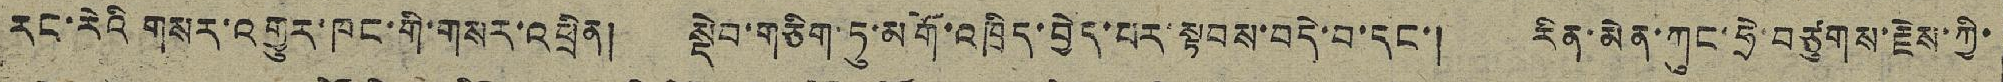རང་རེའི་གསར་འགྱུར་ཁང་གི་གསར་འཕྲིན། སྡེབ་གཅིག་ཏུ་མགོ་འཁྲིད་བྱེད་པར་སྟབས་བདེ་བ་དང་། རིན་མེན་ཀུང་ཧྲེ་བཙུགས་རྗེས་ཀྱི་
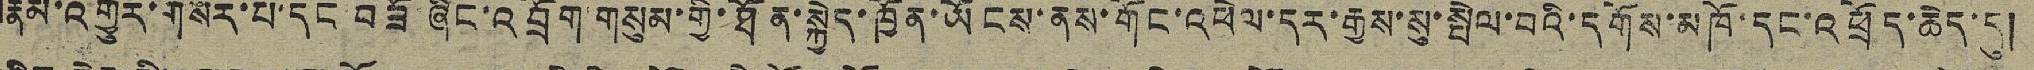རྣམ་འགྱུར་གསར་པ་དང་བཟོ་ཞིང་འབྲོག་གསུམ་གྱི་ཐོན་སྐྱེད་ཁྱོན་ཡོངས་ནས་གོང་འཕེལ་དར་རྒྱས་སུ་སྤེལ་བའི་དགོས་མཁོ་དང་འཕྲོད་ཆེད་དུ།
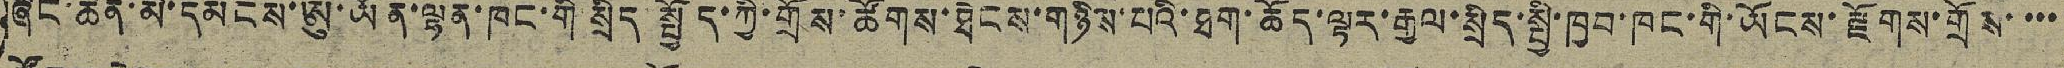ཞིང་ཆེན་མི་དམངས་ཨུ་ཡོན་ལྷན་ཁང་གི་སྲིད སྤྱོད་ཀྱི་གྲོས་ཚོགས་ཐེངས་གཉིས་པའི་ཐག་ཆོད་ལྟར་རྒྱལ་སྲིད་སྤྱི་ཁྱབ་ཁང་གི་ཡོངས་རྫོགས་གྲོས་་་་
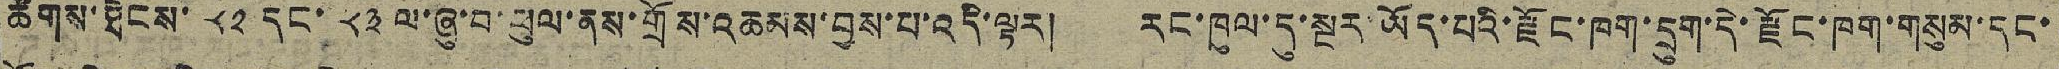ཚོགས་ཐེངས་ ༨༢ དང་ ༨༣ ལ་ཞུ་བ་ཕུལ་ནས་གྲོས་འཆམས་བྱས་པ་འདི་ལྟར། རང་ཁུལ་དུ་སྔར་ཡོད་པའི་རྫོང་ཁག་དྲུག་དེ་རྫོང་ཁག་གསུམ་དང་
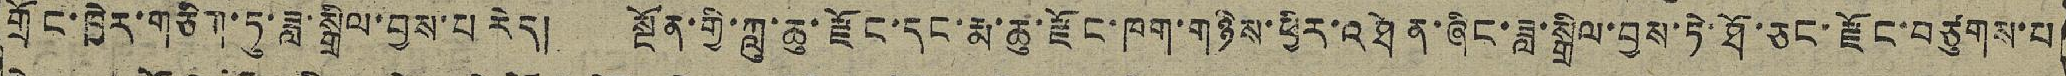གྲོང་ཁྱེར་གཅིག་ཏུ་ཟླ་སྒྲིལ་བྱས་པ་རེད། སྔོན་གྱི་ཀླུ་ཆུ་རྫོང་དང་རྨ་ཆུ་རྫོང་ཁག་གཉིས་ཕྱིར་འཐེན་ཞིང་ཟླ་སྒྲིལ་བྱས་ཏེ་ཐོ་ཅང་རྫོང་བཙུགས་པ
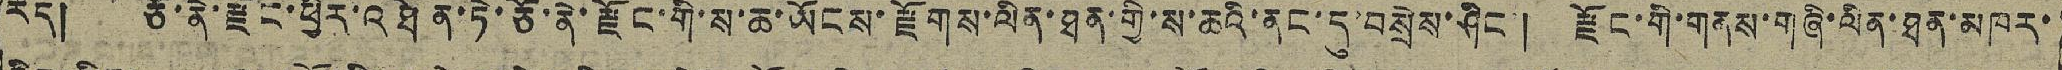རེད། ཅོ་ནེ་རྫོང་ཕྱིར་འཐེན་ཏེ་ཅོ་ནེ་རྫོང་གི་ས་ཆ་ཡོངས་རྫོགས་ལིན་ཐན་གྱི་ས་ཆའི་ནང་དུ་བསྲེས་ཤིང་། རྫོང་གི་གནས་གཞི་ལིན་ཐན་མཁར་
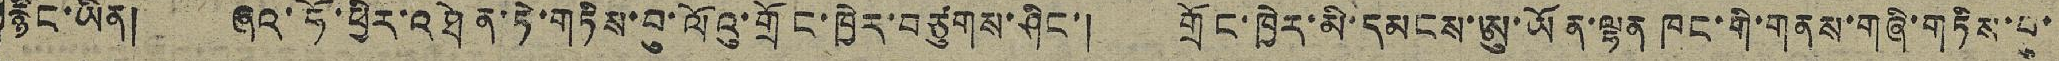རྙིང་ཡིན། ཞའ་ཧོ་ཕྱིར་འཐེན་ཏེ་གཏིས་བུ་ལོའུ་གྲོང་ཁྱེར་བཙུགས་ཤིང་། གྲོང་ཁྱེར་མི་དམངས་ཨུ་ཡོན་ལྷན་ཁང་གི་གནས་གཞི་གཏིས་བུ་
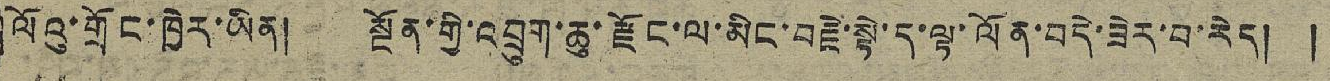ལོའུ་གྲོང་ཁྱེར་ཡིན། སྔོན་གྱི་འབྲུག་ཆུ་རྫོང་ལ་མིང་བརྗེ་སྟེ་ད་ལྟ་ལོན་བདེ་ཟེར་བ་རེད། །
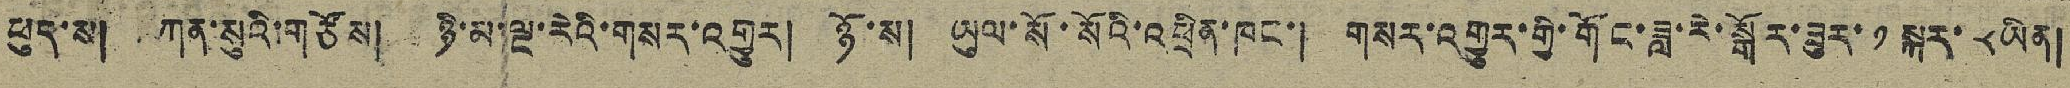ཕུད་ས། ཀན་སུའི་གཙོས། ཉི་མ་ལྔ་རེའི་གསར་འགྱུར། ཉོ་ས། ཡུལ་སོ་སོའི་འཕྲིན་ཁང་། གསར་འགྱུར་གྱི་གོང་ཟླ་རེ་སྒོར་ཟུར་ ༡ སྐར་ ༨ ཡིན།
